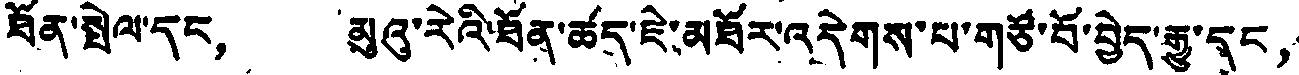ཐོན་སྤེལ་དང， མུའུ་རེའི་ཐོན་ཚད་ཇེ་མཐོར་འདེགས་པ་གཙོ་བོ་བྱེད་རྒྱུ་དང，
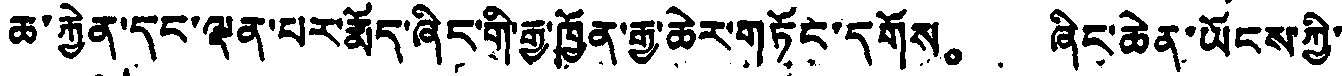ཆ་རྐྱེན་དང་ལྡན་པར་རྨོད་ཞིང་གི་རྒྱ་ཁྱོན་རྒྱ་ཆེར་གཏོང་དགོས。 ཞིང་ཆེན་ཡོངས་ཀྱི་
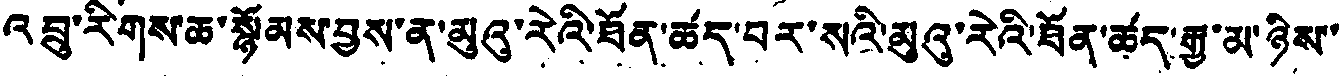འབྲུ་རིགས་ཆ་སྙོམས་བྱས་ན་མུའུ་རེའི་ཐོན་ཚད་བར་སའི་མུའུ་རེའི་ཐོན་ཚད་རྒྱ་མ་ཉིས་་
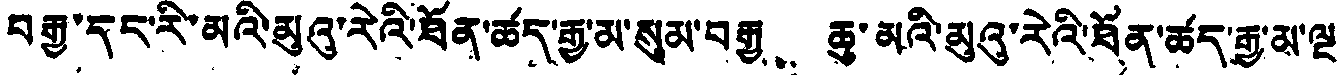བརྒྱ་དང་རི་མའི་མུའུ་རེའི་ཐོན་ཚད་རྒྱ་མ་སུམ་བརྒྱ、 ཆུ་མའི་མུའུ་རེའི་ཐོན་ཚད་རྒྱ་མ་ལྔ
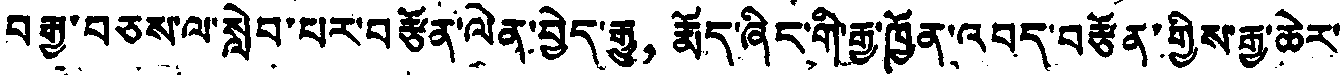བརྒྱ་བཅས་ལ་སླེབ་པར་བརྩོན་ལེན་བྱེད་རྒྱུ， རྨོད་ཞིང་གི་རྒྱ་ཁྱོན་འབད་བརྩོན་གྱིས་རྒྱ་ཆེར་
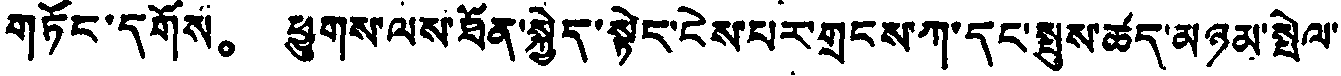གཏོང་དགོས。 ཕྱུགས་ལས་ཐོན་སྐྱེད་སྟེང་ངེས་པར་གྲངས་ཀ་དང་སྤུས་ཚད་མཉམ་སྤེལ་
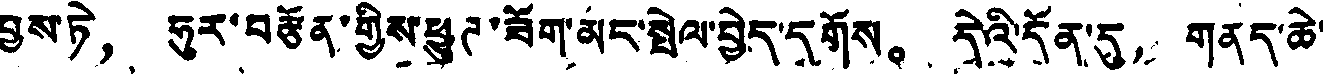བྱས་ཏེ， ཧུར་བརྩོན་གྱིས་ཕྱུཊ་ཟོག་མང་སྤེལ་བྱེད་དགོས。 དེའི་དོན་དུ， གནད་ཆེ་
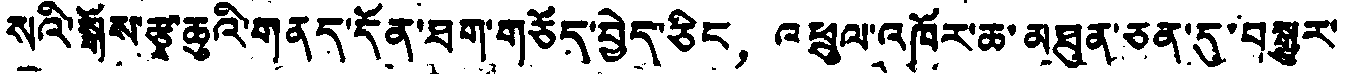སའི་སྒོས་རྩྭ་ཆུའི་གནད་དོན་ཐག་གཅོད་བྱེད་ཅིང， འཕྲུལ་འཁོར་ཆ་མཐུན་ཅན་དུ་བསྒྱུར་
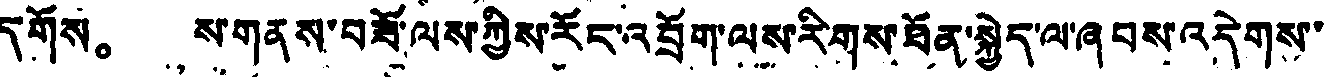དགོས。 ས་གནས་བཟོ་ལས་ཀྱིས་རོང་འབྲོག་ལས་རིགས་ཐོན་སྐྱེད་ལ་ཞབས་འདེགས་་
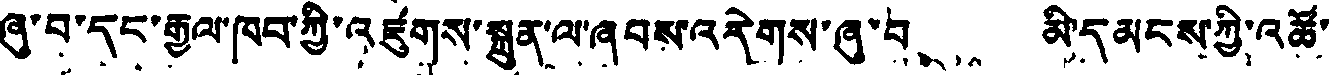ཞུ་བ་དང་རྒྱལ་ཁབ་ཀྱི་འཛུགས་སྐྲུན་ལ་ཞབས་འདེགས་ཞུ་བ、 མི་དམངས་ཀྱི་འཚོ་
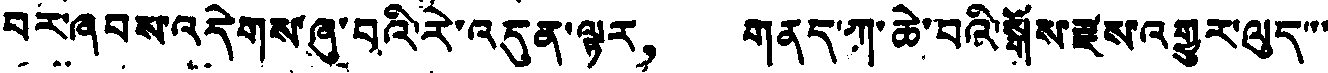བར་ཞབས་འདེགས་ཞུ་བའི་རེ་འདུན་ལྟར， གནད་ཀ་ཆེ་བའི་སྒོས་རྫས་འགྱུར་ལུད་་་
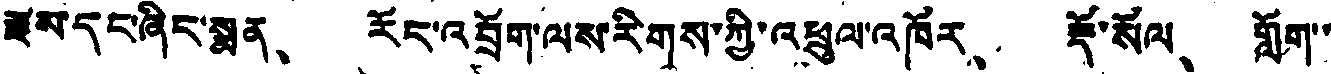རྫས་དང་ཞིང་སྨན、 རོང་འབྲོག་ལས་རིགས་ཀྱི་འཕྲུལ་འཁོར、 རྡོ་སོལ、 གློག་་
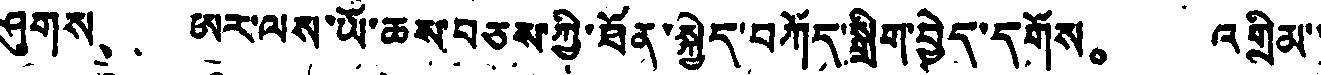ཤུགས、 ཨར་ལས་ཡོ་ཆས་བཅས་ཀྱི་ཐོན་སྐྱེད་བཀོད་སྒྲིག་བྱེད་དགོས。 འགྲིམ་་
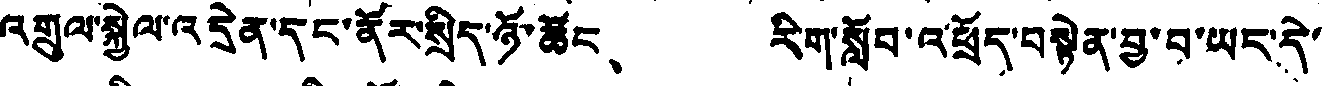འགྲུལ་སྐྱེལ་འདྲེན་དང་ནོར་སྲིད་ཉོ་ཚོང、 རིག་སློབ་འཕྲོད་བསྟེན་བྱ་བ་ཡང་དེ་
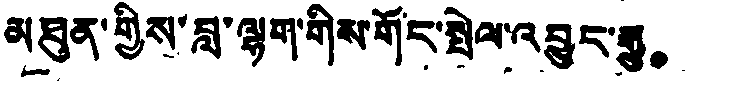མཐུན་གྱིས་བླ་ལྷག་གིས་གོད་སྤེལ་འབྱུང་རྒྱུ。
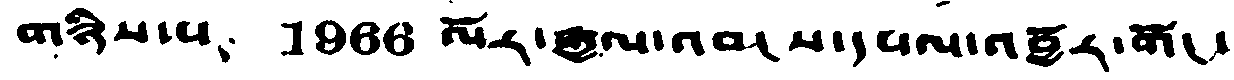གཉིས་པ、 1966 ལོར་རྒྱལ་འབངས་དཔལ་འབྱོར་གོང་
